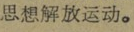思想解放运动。
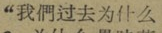“我們过去为什么
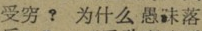受穷？为什么愚昧落
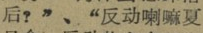后？”、“反动喇嘛夏
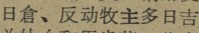日倉、反正牧主多日吉
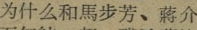为什么和馬步芳、蔣介
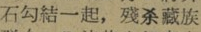石勾結一起，殘杀藏族
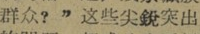群众？”这些尖銳突出
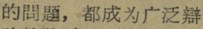的問題，都成为广泛辯
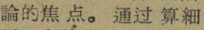論的焦 点。通过 算 細
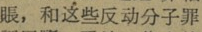賬，和这些反动分子罪
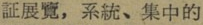証展覽，系統、集中的
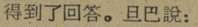得到了回答。旦巴說：
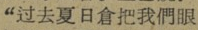“过去夏日倉把我們眼
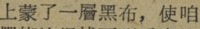上蒙了一層黑布，使咱
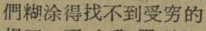們糊涂得找不到受穷的
